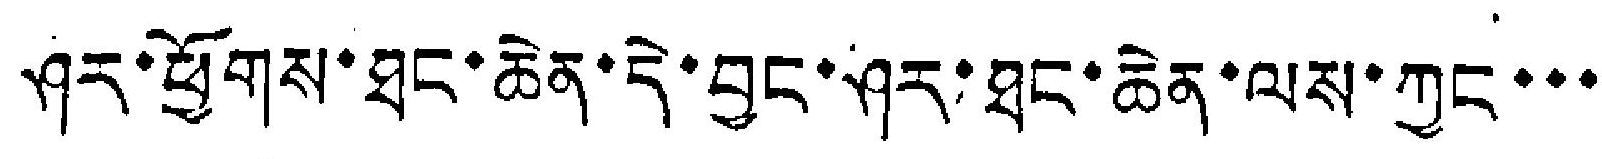ཤར་ཕྱོགས་ཐང་ཆེན་དེ་བྱང་ཤར་ཐང་ཆེན་ལས་ཀྱང་་་
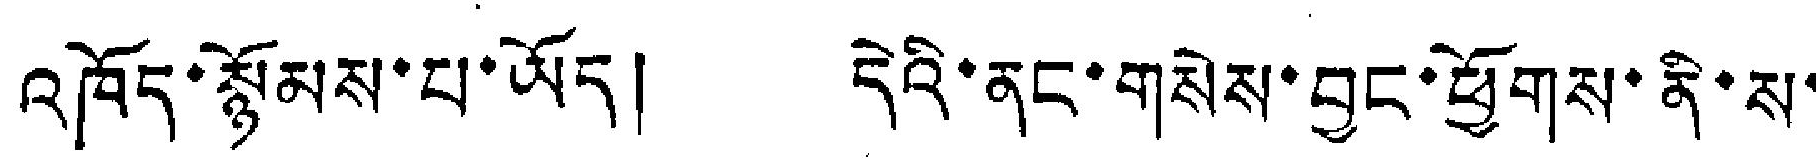འཁོད་སྙོམས་པ་ཡོད། དེའི་ནང་གསེས་བྱང་ཕྱོགས་ནི་ས་
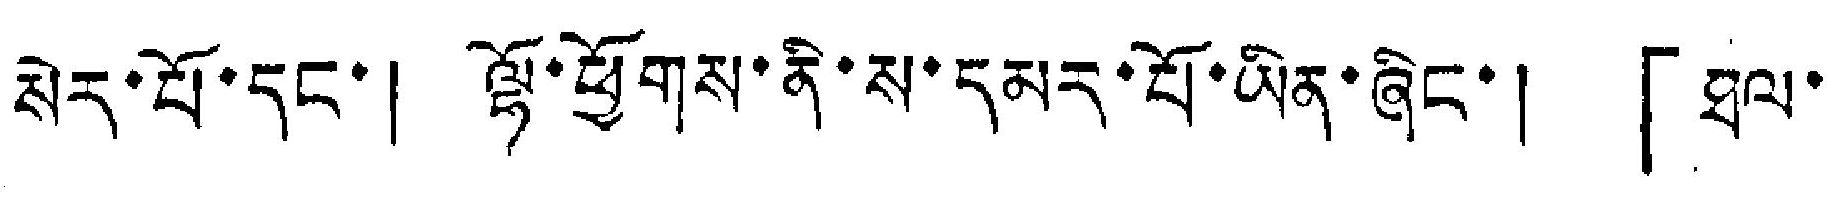སེར་པོ་དང་། ལྷོ་ཕྱོགས་ནི་ས་དམར་པོ་ཡིན་ཞིང་། 「ཐལ་
